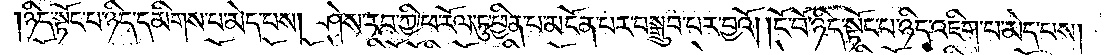ཉིད་སྟོང་པ་ཉིད་དམིགས་པ་མེད་པས། ཤེས་རབ་ཀྱི་ཕ་རོལ་ཏུ་ཕྱིན་པ་མངོན་པར་བསྒྲུབ་པར་བྱའོ། །ངོ་བོ་ཉིད་སྟོང་པ་ཉིད་འཇིག་པ་མེད་པས།
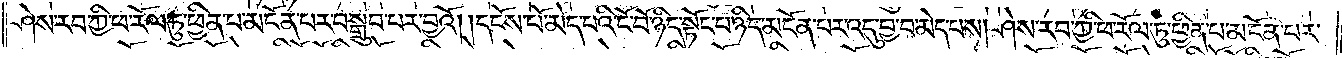ཤེས་རབ་ཀྱི་ཕ་རོལ་ཏུ་ཕྱིན་པ་མངོན་པར་བསྒྲུབ་པར་བྱའོ། །དངོས་པོ་མེད་པའི་ངོ་བོ་ཉིད་སྟོང་པ་ཉིད་མངོན་པར་འདུ་བྱ་བ་མེད་པས། ཤེས་རབ་ཀྱི་ཕ་རོལ་ཏུ་ཕྱིན་པ་མངོན་པར་
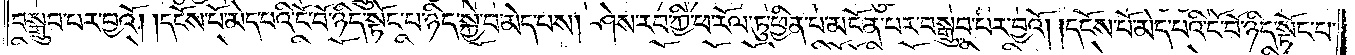བསྒྲུབ་པར་བྱའོ། །དངོས་པོ་མེད་པའི་ངོ་བོ་ཉིད་སྟོང་པ་ཉིད་སྐྱེ་བ་མེད་པས། ཤེས་རབ་ཀྱི་ཕ་རོལ་ཏུ་ཕྱིན་པ་མངོན་པར་བསྒྲུབ་པར་བྱའོ། །དངོས་པོ་མེད་པའི་ངོ་བོ་ཉིད་སྟོང་པ་
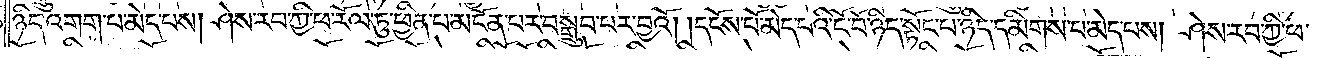ཉིད་འགག་པ་མེད་པས། ཤེས་རབ་ཀྱི་ཕ་རོལ་ཏུ་ཕྱིན་པ་མངོན་པར་བསྒྲུབ་པར་བྱའོ། །དངོས་པོ་མེད་པའི་ངོ་བོ་ཉིད་སྟོང་པ་ཉིད་དམིགས་པ་མེད་པས། ཤེས་རབ་ཀྱི་ཕ་
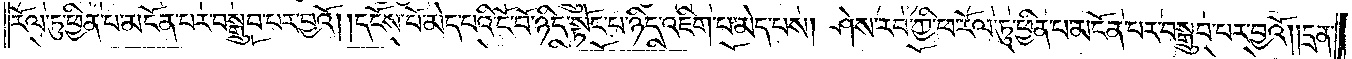རོལ་ཏུ་ཕྱིན་པ་མངོན་པར་བསྒྲུབ་པར་བྱའོ། །དངོས་པོ་མེད་པའི་ངོ་བོ་ཉིད་སྟོང་པ་ཉིད་འཇིག་པ་མེད་པས། ཤེས་རབ་ཀྱི་ཕ་རོལ་ཏུ་ཕྱིན་པ་མངོན་པར་བསྒྲུབ་པར་བྱའོ། །དྲན་
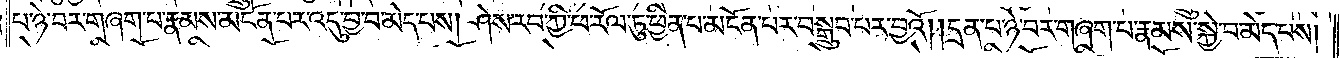པ་ཉེ་བར་གཞག་པ་རྣམས་མངོན་པར་འདུ་བྱ་བ་མེད་པས། ཤེས་རབ་ཀྱི་ཕ་རོལ་ཏུ་ཕྱིན་པ་མངོན་པར་བསྒྲུབ་པར་བྱའོ། །དྲན་པ་ཉེ་བར་གཞག་པ་རྣམས་སྐྱེ་བ་མེད་པས།
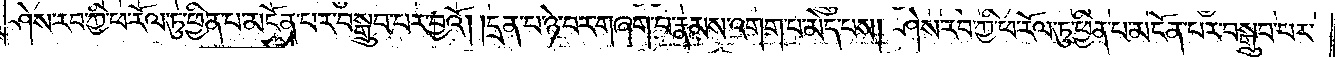ཤེས་རབ་ཀྱི་ཕ་རོལ་ཏུ་ཕྱིན་པ་མངོན་པར་བསྒྲུབ་པར་བྱའོ། །དྲན་པ་ཉེ་བར་གཞག་པ་རྣམས་འགག་པ་མེད་པས། ཤེས་རབ་ཀྱི་ཕ་རོལ་ཏུ་ཕྱིན་པ་མངོན་པར་བསྒྲུབ་པར་
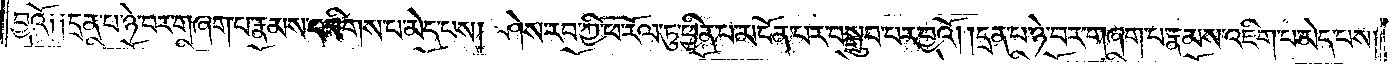བྱའོ༑ ༑དྲན་པ་ཉེ་བར་གཞག་པ་རྣམས་དམིགས་པ་མེད་པས། ཤེས་རབ་ཀྱི་ཕ་རོལ་ཏུ་ཕྱིན་པ་མངོན་པར་བསྒྲུབ་པར་བྱའོ། །དྲན་པ་ཉེ་བར་གཞག་པ་རྣམས་འཇིག་པ་མེད་པས།
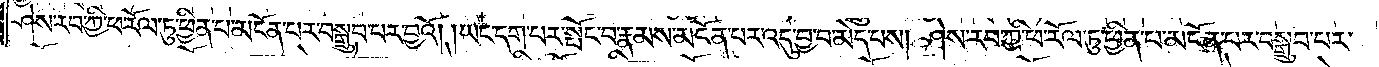ཤེས་རབ་ཀྱི་ཕ་རོལ་ཏུ་ཕྱིན་པ་མངོན་པར་བསྒྲུབ་པར་བྱའོ། །ཡང་དག་པར་སྤོང་བ་རྣམས་མངོན་པར་འདུ་བྱ་བ་མེད་པས། ཤེས་རབ་ཀྱི་ཕ་རོལ་ཏུ་ཕྱིན་པ་མངོན་པར་བསྒྲུབ་པར་
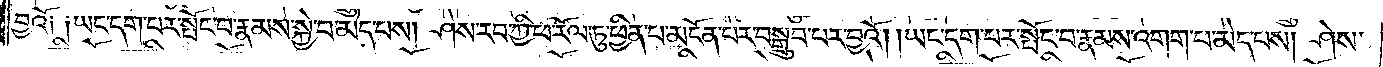བྱའོ༑ ༑ཡང་དག་པར་སྤོང་བ་རྣམས་སྐྱེ་བ་མེད་པས། ཤེས་རབ་ཀྱི་ཕ་རོལ་ཏུ་ཕྱིན་པ་མངོན་པར་བསྒྲུབ་པར་བྱའོ། །ཡང་དག་པར་སྤོང་བ་རྣམས་འགག་པ་མེད་པས། ཤེས་
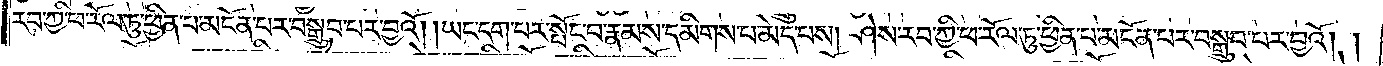རབ་ཀྱི་ཕ་རོལ་ཏུ་ཕྱིན་པ་མངོན་པར་བསྒྲུབ་པར་བྱའོ། །ཡང་དག་པར་སྤོང་བ་རྣམས་དམིགས་པ་མེད་པས། ཤེས་རབ་ཀྱི་ཕ་རོལ་ཏུ་ཕྱིན་པ་མངོན་པར་བསྒྲུབ་པར་བྱའོ། །
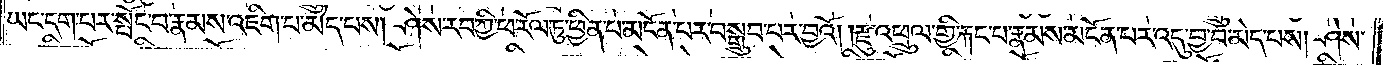ཡང་དག་པར་སྤོང་བ་རྣམས་འཇིག་པ་མེད་པས། ཤེས་རབ་ཀྱི་ཕ་རོལ་ཏུ་ཕྱིན་པ་མངོན་པར་བསྒྲུབ་པར་བྱའོ། །རྫུ་འཕྲུལ་གྱི་རྐང་པ་རྣམས་མངོན་པར་འདུ་བྱ་བ་མེད་པས། ཤེས་
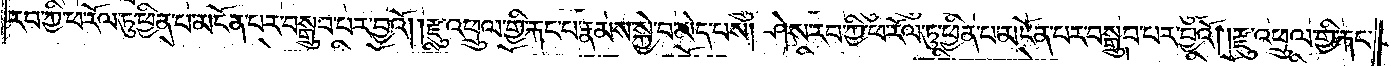རབ་ཀྱི་ཕ་རོལ་ཏུ་ཕྱིན་པ་མངོན་པར་བསྒྲུབ་པར་བྱའོ། །རྫུ་འཕྲུལ་གྱི་རྐང་པ་རྣམས་སྐྱེ་བ་མེད་པས། ཤེས་རབ་ཀྱི་ཕ་རོལ་ཏུ་ཕྱིན་པ་མངོན་པར་བསྒྲུབ་པར་བྱའོ། །རྫུ་འཕྲུལ་གྱི་རྐང་
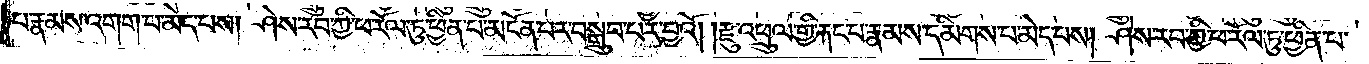པ་རྣམས་འགག་པ་མེད་པས། ཤེས་རབ་ཀྱི་ཕ་རོལ་ཏུ་ཕྱིན་པ་མངོན་པར་བསྒྲུབ་པར་བྱའོ། །རྫུ་འཕྲུལ་གྱི་རྐང་པ་རྣམས་དམིགས་པ་མེད་པས། ཤེས་རབ་ཀྱི་ཕ་རོལ་ཏུ་ཕྱིན་པ་
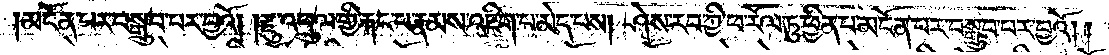མངོན་པར་བསྒྲུབ་པར་བྱའོ། །རྫུ་འཕྲུལ་གྱི་རྐང་པ་རྣམས་འཇིག་པ་མེད་པས། ཤེས་རབ་ཀྱི་ཕ་རོལ་ཏུ་ཕྱིན་པ་མངོན་པར་བསྒྲུབ་པར་བྱའོ། །
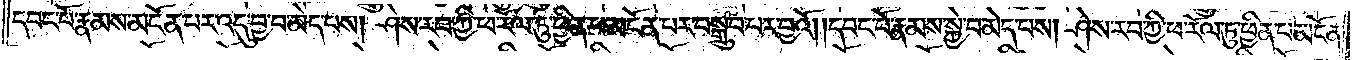དབང་པོ་རྣམས་མངོན་པར་འདུ་བྱ་བ་མེད་པས། ཤེས་རབ་ཀྱི་ཕ་རོལ་ཏུ་ཕྱིན་པ་མངོན་པར་བསྒྲུབ་པར་བྱའོ། །དབང་པོ་རྣམས་སྐྱེ་བ་མེད་པས། ཤེས་རབ་ཀྱི་ཕ་རོལ་ཏུ་ཕྱིན་པ་མངོན་
